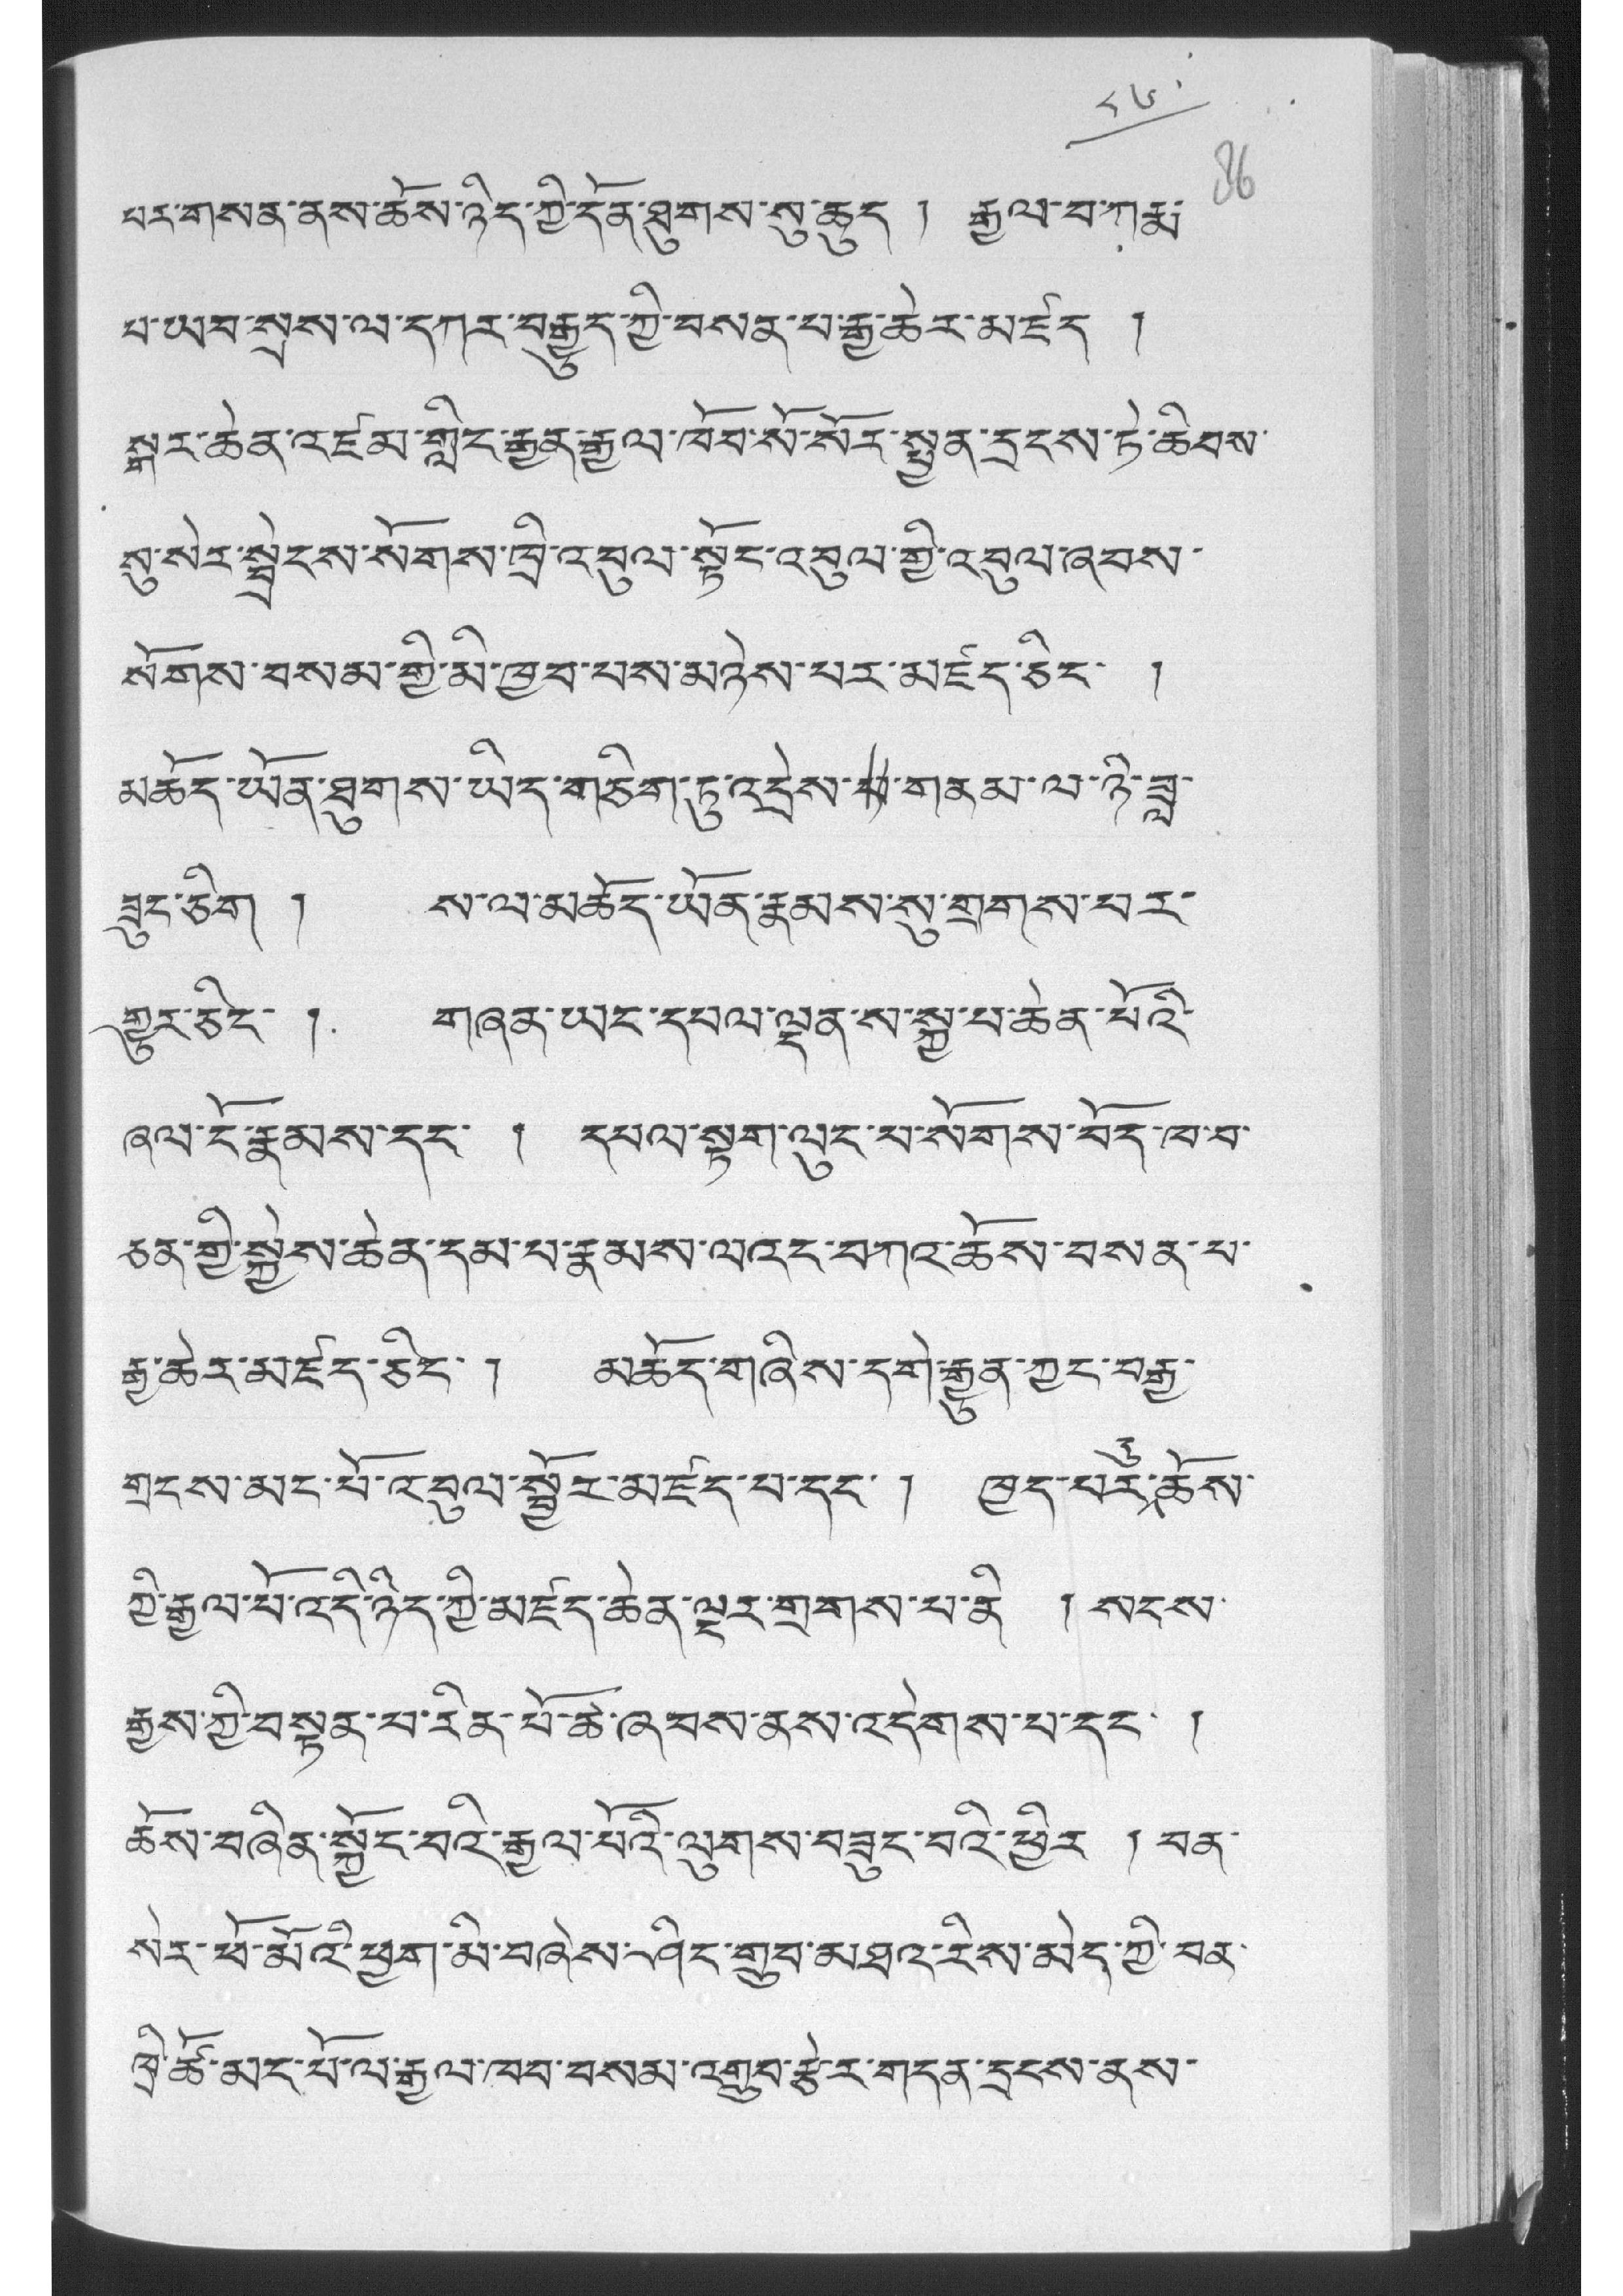༨༦
པར་གསན་ནས་ཆོས་ཉིད་ཀྱི་དོན་ཐུགས་སུ་ཆུད ། རྒྱལ་བ་ཀརྨ་
པ་ཡབ་སྲས་ལ་དཀར་བརྒྱུད་ཀྱི་བསན་པ་རྒྱ་ཆེར་མཛད །
སྒར་ཆེན་འཛམ་གླིང་རྒྱན་རྒྱལ་ཁོབ་སོ་སོར་སྤྱན་དྲངས་ཏེ་ཆིབས་
སུ་སེར་སྦྲེངས་སོགས་ཁྲི་འབུལ་སྟོང་འབུལ་གྱི་འབུལ་ཞབས་
སོགས་བསམ་གྱི་མི་ཁྱབ་པས་མཉེས་པར་མཛད་ཅིང་ །
མཆོད་ཡོན་ཐུགས་ཡིད་གཅིག་ཏུ་འདྲེས་པ་གནམ་ལ་ཉི་ཟླ་
ཟུང་ཅིག ། ས་ལ་མཆོད་ཡོན་རྣམས་སུ་གྲགས་བར་
གྱུར་ཅིང་ ། གཞན་ཡང་དཔལ་ལྡན་ས་སྐྱ་པ་ཆེན་པོའི་
ཞལ་ངོ་རྣམས་དང་ ། དཔལ་སྟག་ལུང་པ་སོགས་བོད་ཁ་བ་
ཅན་གྱི་སྐྱེས་ཆེན་དམ་པ་རྣམས་ལའང་བཀའ་ཆོས་བསན་པ་
རྒྱ་ཆེར་མཛད་ཅིང་ ། མཆོད་གཞིས་དགེ་རྒྱུན་ཀྱང་བརྒྱ་
གྲངས་མང་པོ་འབུལ་སྦྱོར་མཛད་པ་དང་ ། ཁྱད་པར་དུ་ཆོས་
ཀྱི་རྒྱལ་པོ་འདི་ཉིད་གྱི་མཛད་ཆེན་ལྔར་གྲགས་པ་ནི ། སངས་
རྒྱུས་ཀྱི་བསྟན་པ་རིན་པོ་ཆེ་ཞབས་ནས་འདེགས་པ་དང་ །
ཆོས་བཞིན་སྐྱོང་བའི་རྒྱལ་པོའི་ལུགས་བཟུང་བའི་ཕྱིར ། བན་
སེར་ཕོ་མོའི་ཕྱག་མི་བཞེས་ཤིང་གྲུབ་མཐའ་རིས་མེད་ཀྱི་བན་
ཁྲི་ཚོ་མང་པོ་ལ་རྒྱལ་ཁབ་བསམ་འགྲུབ་རྩེར་གདན་དྲངས་ནས་
